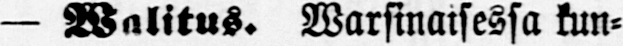— Walitus. Warsinaisessa kun-
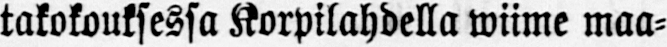takokouksessa Korpilahdella wiime maa-
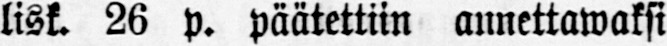lisk. 26 p. päätettiin annettawaksi
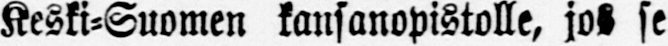Keski-Suomen kansanopistolle, jos se
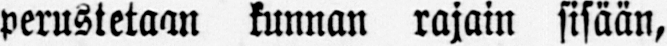perustetaan kunnan rajain sisään,
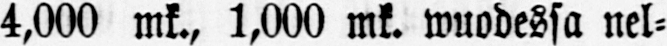4,000 mk., 1,000 mk. wuodessa nel-
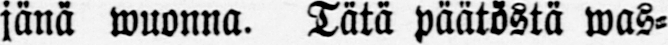jänä wuonna. Tätä päätöstä was-
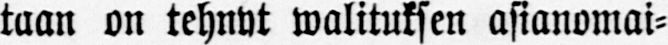taan on tehnyt walituksen asianomai-
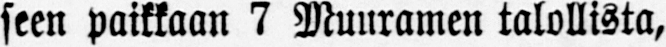seen paikkaan 7 Muuramen talollista,
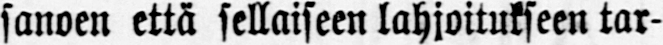sanoen että sellaiseen lahjoitukseen tar-
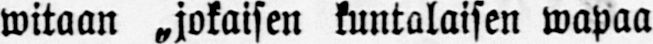witaan „jokaisen kuntalaisen wapaa-
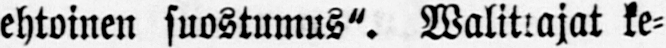ehtoinen suostumus". Walittajat ke-
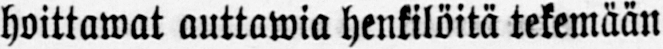hoittawat auttawia henkilöitä tekemään
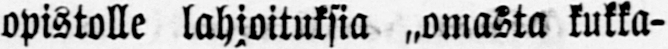opistolle lahjoituksia „omasta kukka-
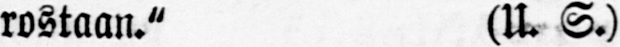rostaan." (U. S.)
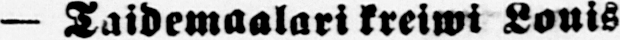— Taidemaalari kreiwi Louis
